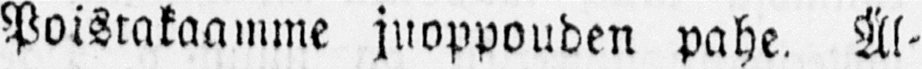Poistakaamme juoppouden pahe. Äl-
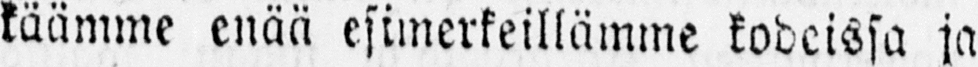käämme enää esimerkeillämme kodeissa ja
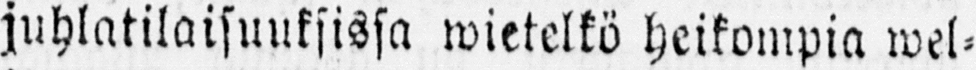juhlatilaisuuksissa wietelkö heikompia wel-
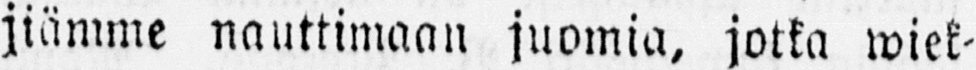jiämme nauttimaan juomia, jotka wiek-
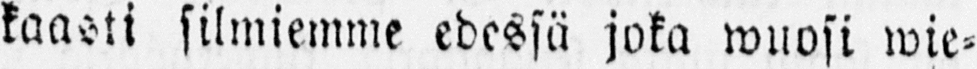kaasti silmiemme edessä joka wuosi wie-
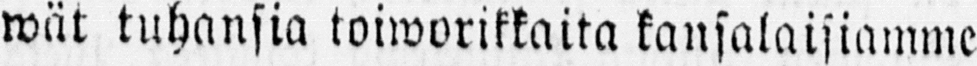wät tuhansia toiworikkaita kansalaisiamme
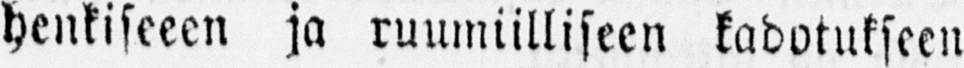henkiseeen ja ruumiilliseen kadotukseen
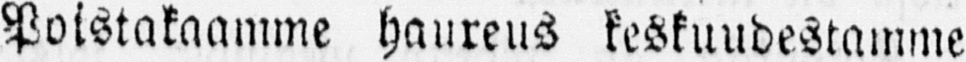Poistakaamme haureus keskuudestamme
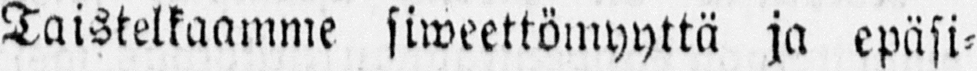Taistelkaamme siweettömyyttä ja epäsi-
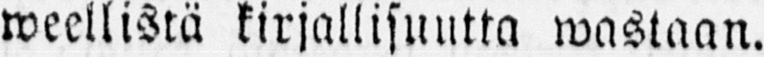weellistä kirjallisuutta wastaan.
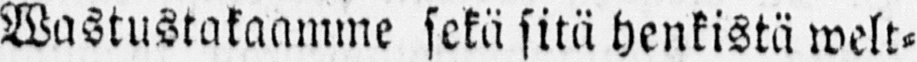Wastustakaamme sekä sitä henkistä welt-
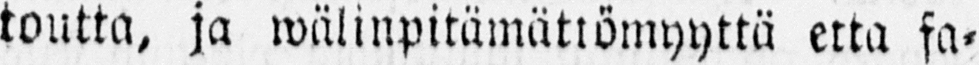toutta, ja wälinpitämättömyyttä etta fa-
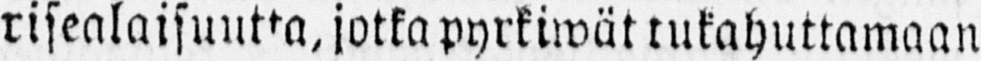risealaisuutta, jotka pyrkiwät tukahuttamaan
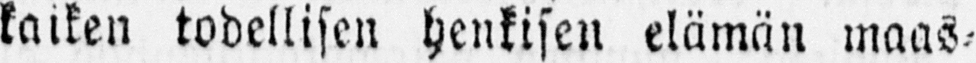kaiken todellisen henkisen elämän maas-
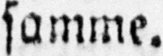samme.
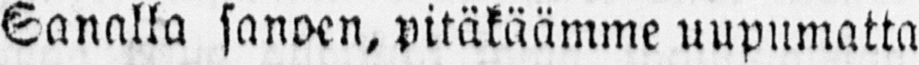Sanalla sanoen, pitäkäämme uupumatta
